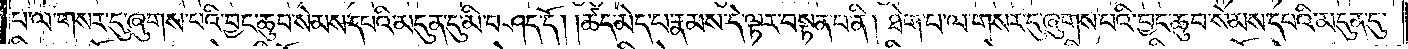པ་ལ་གསར་དུ་ཞུགས་པའི་བྱང་ཆུབ་སེམས་དཔའི་མདུན་དུ་མི་བཤད་དོ། །ཚད་མེད་པ་རྣམས་དེ་ལྟར་བསྟན་པ་ནི། ཐེག་པ་ལ་གསར་དུ་ཞུགས་པའི་བྱང་ཆུབ་སེམས་དཔའི་མདུན་དུ་
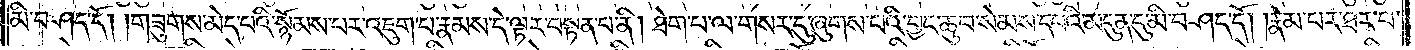མི་བཤད་དོ། །གཟུགས་མེད་པའི་སྙོམས་པར་འཇུག་པ་རྣམས་དེ་ལྟར་བསྟན་པ་ནི། ཐེག་པ་ལ་གསར་དུ་ཞུགས་པའི་བྱང་ཆུབ་སེམས་དཔའི་མདུན་དུ་མི་བཤད་དོ། །རྣམ་པར་ཐར་པ་
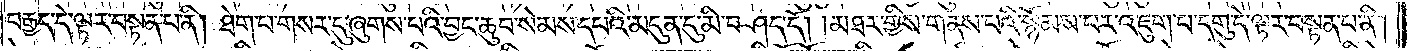བརྒྱད་དེ་ལྟར་བསྟན་པ་ནི། ཐེག་པ་ལ་གསར་དུ་ཞུགས་པའི་བྱང་ཆུབ་སེམས་དཔའི་མདུན་དུ་མི་བཤད་དོ། །མཐར་གྱིས་གནས་བའི་སྙོམས་བར་འཇུག་པ་དགུ་དེ་ལྟར་བསྟན་པ་ནི།
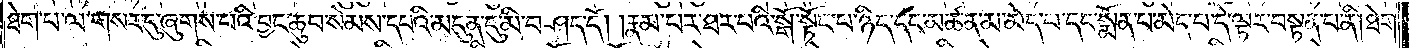ཐེག་པ་ལ་གསར་དུ་ཞུགས་པའི་བྱང་ཆུབ་སེམས་དཔའི་མདུན་དུ་མི་བཤད་དོ། །རྣམ་པར་ཐར་པའི་སྒོ་སྟོང་པ་ཉིད་དང་མཚན་མ་མེད་པ་དང་སྨོན་བ་མེད་པ་དེ་ལྟར་བསྟན་པ་ནི། ཐེག་
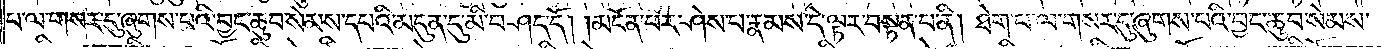པ་ལ་གསར་དུ་ཞུགས་པའི་བྱང་ཆུབ་སེམས་དཔའི་མདུན་དུ་མི་བཤད་དོ། །མངོན་པར་ཤེས་པ་རྣམས་དེ་ལྟར་བསྟན་པ་ནི། ཐེག་པ་ལ་གསར་དུ་ཞུགས་པའི་བྱང་ཆུབ་སེམས་
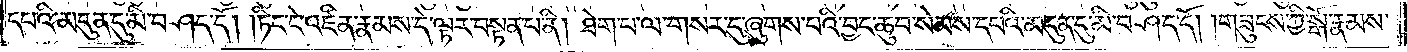དཔའི་མདུན་དུ་མི་བཤད་དོ། །ཏིང་ངེ་འཛིན་རྣམས་དེ་ལྟར་བསྟན་པ་ནི། ཐེག་པ་ལ་གསར་དུ་ཞུགས་པའི་བྱང་ཆུབ་སེམས་དཔའི་མདུན་དུ་མི་བཤད་དོ། །གཟུངས་ཀྱི་སྒོ་རྣམས་
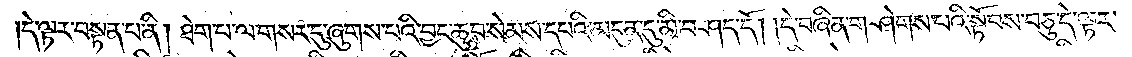དེ་ལྟར་བསྟན་པ་ནི། ཐེག་པ་ལ་གསར་དུ་ཞུགས་པའི་བྱང་ཆུབ་སེམས་དཔའི་མདུན་དུ་མི་བཤད་དོ། །དེ་བཞིན་གཤེགས་པའི་སྟོབས་བཅུ་དེ་ལྟར་
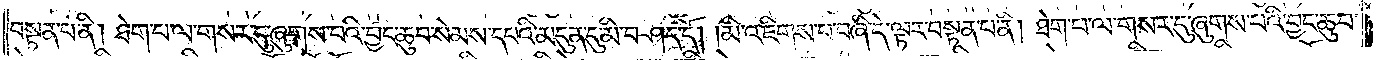བསྟན་པ་ནི། ཐེག་པ་ལ་གསར་དུ་ཞུགས་པའི་བྱང་ཆུབ་སེམས་དཔའི་མདུན་དུ་མི་བཤད་དོ། །མི་འཇིགས་པ་བཞི་དེ་ལྟར་བསྟན་པ་ནི། ཐེག་པ་ལ་གསར་དུ་ཞུགས་པའི་བྱང་ཆུབ་
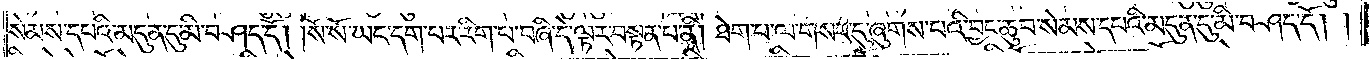སེམས་དཔའི་མདུན་དུ་མི་བཤད་དོ། །སོ་སོ་ཡང་དག་པར་རིག་པ་བཞི་དེ་ལྟར་བསྟན་པ་ནི། ཐེག་པ་ལ་གསར་དུ་ཞུགས་པའི་བྱང་ཆུབ་སེམས་དཔའི་མདུན་དུ་མི་བཤད་དོ༎
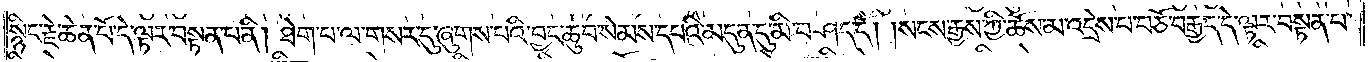སྙིང་རྗེ་ཆེན་པོ་དེ་ལྟར་བསྟན་པ་ནི། ཐེག་པ་ལ་གསར་དུ་ཞུགས་པའི་བྱང་ཆུབ་སེམས་དཔའི་མདུན་དུ་མི་བཤད་དོ། །སངས་རྒྱས་ཀྱི་ཆོས་མ་འདྲེས་པ་བཅོ་བརྒྱད་དེ་ལྟར་བསྟན་པ་
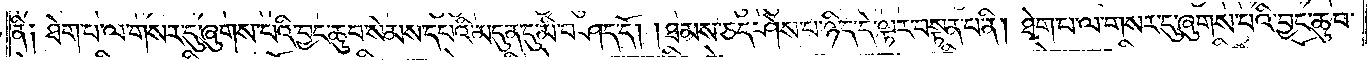ནི༑ ཐེག་པ་ལ་གསར་དུ་ཞུགས་པའི་བྱང་ཆུབ་སེམས་དཔའི་མདུན་དུ་མི་བཤད་དོ། །ཐམས་ཅད་ཤེས་པ་ཉིད་དེ་ལྟར་བསྟན་པ་ནི། ཐེག་པ་ལ་གསར་དུ་ཞུགས་པའི་བྱང་ཆུབ་
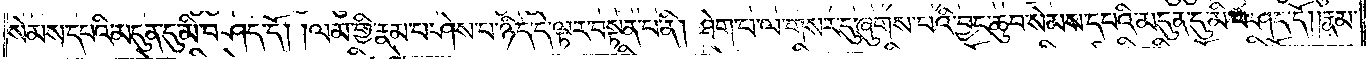སེམས་དཔའི་མདུན་དུ་མི་བཤད་དོ། །ལམ་གྱི་རྣམ་པ་ཤེས་པ་ཉིད་དེ་ལྟར་བསྟན་པ་ནི། ཐེག་པ་ལ་གསར་དུ་ཞུགས་པའི་བྱང་ཆུབ་སེམས་དཔའི་མདུན་དུ་མི་བཤད་དོ། །རྣམ་
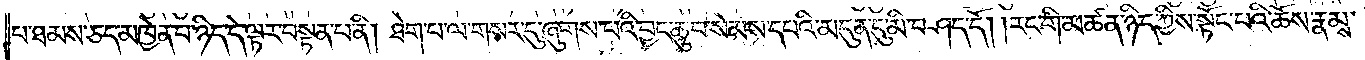པ་ཐམས་ཅད་མཁྱེན་པ་ཉིད་དེ་ལྟར་བསྟན་པ་ནི། ཐེག་པ་ལ་གསར་དུ་ཞུགས་པའི་བྱང་ཆུབ་སེམས་དཔའི་མདུན་དུ་མི་བཤད་དོ། །རང་གི་མཚན་ཉིད་ཀྱིས་སྟོང་པའི་ཆོས་རྣམས་
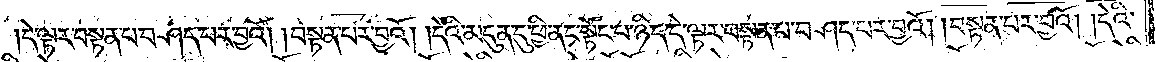དེ་ལྟར་བསྟན་པ་བཤད་པར་བྱའོ། །བསྟན་པར་བྱའོ། །དེའི་མདུན་དུ་ཕྱི་ནང་སྟོང་པ་ཉིད་དེ་ལྟར་བསྟན་པ་བཤད་པར་བྱའོ། །བསྟན་པར་བྱའོ། །དེའི་
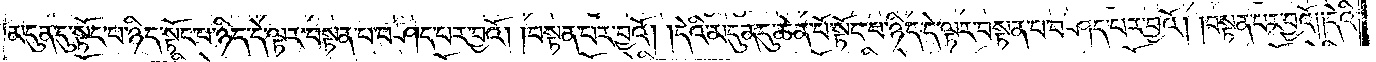མདུན་དུ་སྟོང་པ་ཉིད་སྟོང་པ་ཉིད་དེ་ལྟར་བསྟན་པ་བཤད་པར་བྱའོ། །བསྟན་པར་བྱའོ། །དེའི་མདུན་དུ་ཆེན་པོ་སྟོང་པ་ཉིད་དེ་ལྟར་བསྟན་པ་བཤད་པར་བྱའོ། །བསྟན་པར་བྱའོ། །དེའི་
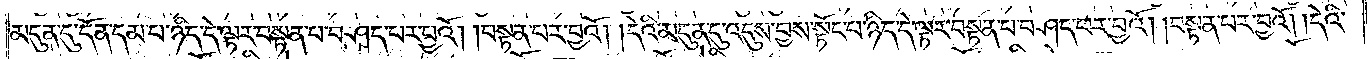མདུན་དུ་དོན་དམ་པ་སྟོང་པ་ཉིད་དེ་ལྟར་བསྟན་པ་བཤད་པར་བྱའོ། །བསྟན་པར་བྱའོ། །དེའི་མདུན་དུ་འདུས་བྱས་སྟོང་པ་ཉིད་དེ་ལྟར་བསྟན་པ་བཤད་པར་བྱའོ། །བསྟན་པར་བྱའོ། །དེའི་
